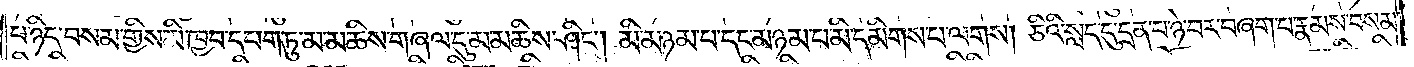པ་ཉིད་བསམ་གྱིས་མི་ཁྱབ་དཔག་ཏུ་མ་མཆིས་གཞལ་དུ་མ་མཆིས་ཤིང༌། མི་མཉམ་པ་དང་མཉམ་པ་མི་དམིགས་པ་ལགས། ཅིའི་སླད་དུ་དྲན་པ་ཉེ་བར་བཞག་པ་རྣམས་བསམ་
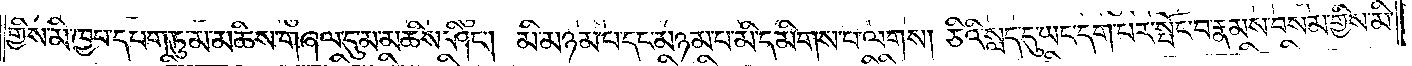གྱིས་མི་ཁྱབ་དཔག་ཏུ་མ་མཆིས་གཞལ་དུ་མ་མཆིས་ཤིང༌། མི་མཉམ་པ་དང་མཉམ་པ་མི་དམིགས་པ་ལགས། ཅིའི་སླད་དུ་ཡང་དག་པར་སྤོང་བ་རྣམས་བསམ་གྱིས་མི་
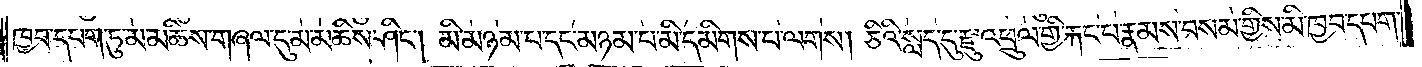ཁྱབ་དཔག་ཏུ་མ་མཆིས་གཞལ་དུ་མ་མཆིས་ཤིང༌། མི་མཉམ་པ་དང་མཉམ་པ་མི་དམིགས་པ་ལགས། ཅིའི་སླད་དུ་རྫུ་འཕྲུལ་གྱི་རྐང་པ་རྣམས་བསམ་གྱིས་མི་ཁྱབ་དཔག་
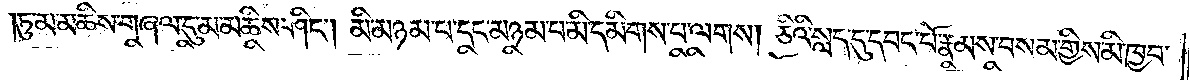ཏུ་མ་མཆིས་གཞལ་དུ་མ་མཆིས་ཤིང༌། མི་མཉམ་པ་དང་མཉམ་པ་མི་དམིགས་པ་ལགས། ཅིའི་སླད་དུ་དབང་པོ་རྣམས་བསམ་གྱིས་མི་ཁྱབ་
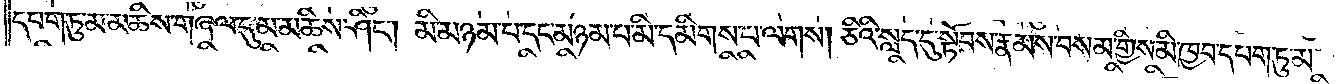དཔག་ཏུ་མ་མཆིས་གཞལ་དུ་མ་མཆིས་ཤིང༌། མི་མཉམ་པ་དང་མཉམ་པ་མི་དམིགས་པ་ལགས། ཅིའི་སླད་དུ་སྟོབས་རྣམས་བསམ་གྱིས་མི་ཁྱབ་དཔག་ཏུ་མ་
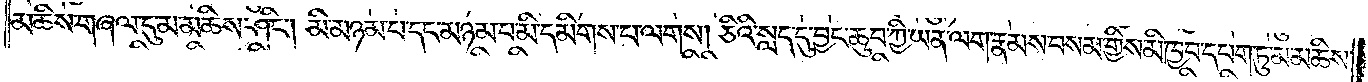མཆིས་གཞལ་དུ་མ་མཆིས་ཤིང༌། མི་མཉམ་པ་དང་མཉམ་པ་མི་དམིགས་པ་ལགས། ཅིའི་སླད་དུ་བྱང་ཆུབ་ཀྱི་ཡན་ལག་རྣམས་བསམ་གྱིས་མི་ཁྱབ་དཔག་ཏུ་མ་མཆིས་
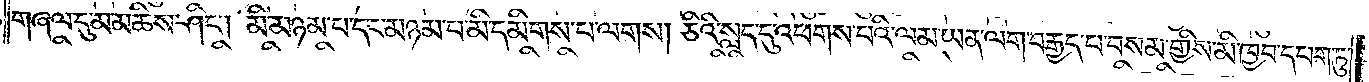གཞལ་དུ་མ་མཆིས་ཤིང༌། མི་མཉམ་པ་དང་མཉམ་པ་མི་དམིགས་པ་ལགས། ཅིའི་སླད་དུ་འཕགས་པའི་ལམ་ཡན་ལག་བརྒྱད་པ་བསམ་གྱིས་མི་ཁྱབ་དཔག་ཏུ་
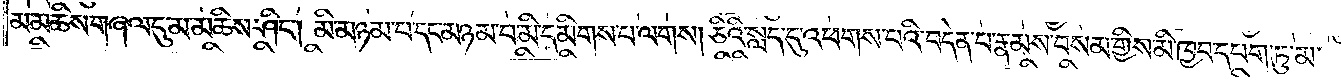མ་མཆིས་གཞལ་དུ་མ་མཆིས་ཤིང༌། མི་མཉམ་པ་དང་མཉམ་པ་མི་དམིགས་པ་ལགས། ཅིའི་སླད་དུ་འཕགས་པའི་བདེན་པ་རྣམས་བསམ་གྱིས་མི་ཁྱབ་དཔག་ཏུ་མ་
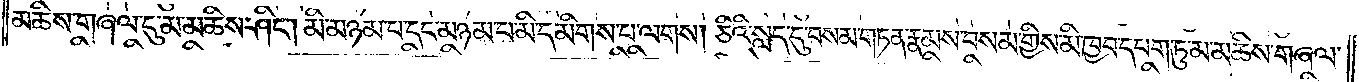མཆིས་གཞལ་དུ་མ་མཆིས་ཤིང༌། མི་མཉམ་པ་དང་མཉམ་པ་མི་དམིགས་པ་ལགས། ཅིའི་སླད་དུ་བསམ་གཏན་རྣམས་བསམ་གྱིས་མི་ཁྱབ་དཔག་ཏུ་མ་མཆིས་གཞལ་
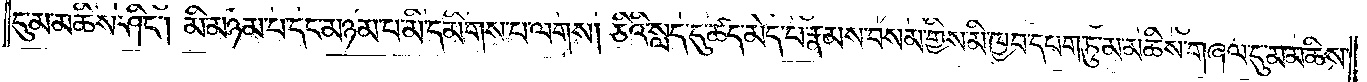དུ་མ་མཆིས་ཤིང༌། མི་མཉམ་པ་དང་མཉམ་པ་མི་དམིགས་པ་ལགས། ཅིའི་སླད་དུ་ཚད་མེད་པ་རྣམས་བསམ་གྱིས་མི་ཁྱབ་དཔག་ཏུ་མ་མཆིས་གཞལ་དུ་མ་མཆིས་
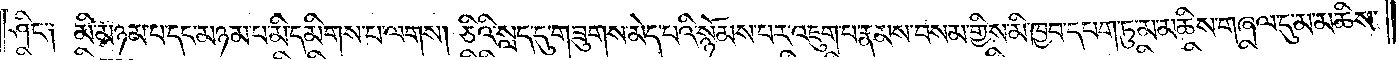ཤིང༌། མི་མཉམ་པ་དང་མཉམ་པ་མི་དམིགས་པ་ལགས། ཅིའི་སླད་དུ་གཟུགས་མེད་པའི་སྙོམས་པར་འཇུག་པ་རྣམས་བསམ་གྱིས་མི་ཁྱབ་དཔག་ཏུ་མ་མཆིས་གཞལ་དུ་མ་མཆིས་
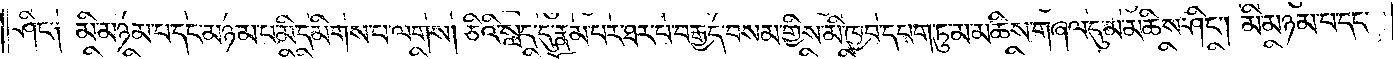ཤིང༌། མི་མཉམ་པ་དང་མཉམ་པ་མི་དམིགས་པ་ལགས། ཅིའི་སླད་དུ་རྣམ་པར་ཐར་པ་བརྒྱད་བསམ་གྱིས་མི་ཁྱབ་དཔག་ཏུ་མ་མཆིས་གཞལ་དུ་མ་མཆིས་ཤིང༌། མི་མཉམ་པ་དང་
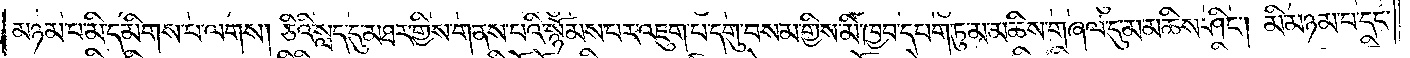མཉམ་པ་མི་དམིགས་པ་ལགས། ཅིའི་སླད་དུ་མཐར་གྱིས་གནས་པའི་སྙོམས་པར་འཇུག་པ་དགུ་བསམ་གྱིས་མི་ཁྱབ་དཔག་ཏུ་མ་མཆིས་གཞལ་དུ་མ་མཆིས་ཤིང༌། མི་མཉམ་པ་དང་
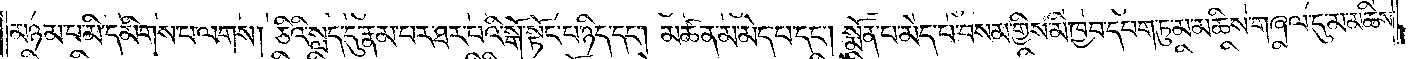མཉམ་པ་མི་དམིགས་པ་ལགས། ཅིའི་སླད་དུ་རྣམ་པར་ཐར་པའི་སྒོ་སྟོང་པ་ཉིད་དང༌། མཚན་མ་མེད་པ་དང༌། སྨོན་པ་མེད་པ་བསམ་གྱིས་མི་ཁྱབ་དཔག་ཏུ་མ་མཆིས་གཞལ་དུ་མ་མཆིས་
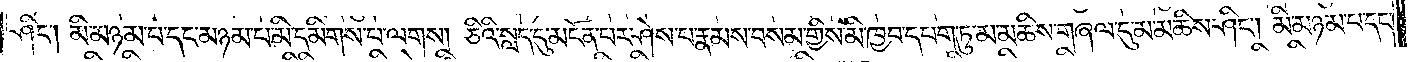ཤིང༌། མི་མཉམ་པ་དང་མཉམ་པ་མི་དམིགས་པ་ལགས། ཅིའི་སླད་དུ་མངོན་པར་ཤེས་པ་རྣམས་བསམ་གྱིས་མི་ཁྱབ་དཔག་ཏུ་མ་མཆིས་གཞལ་དུ་མ་མཆིས་ཤིང༌། མི་མཉམ་པ་དང་
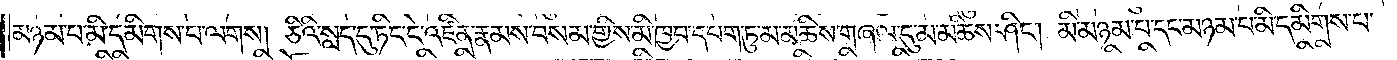མཉམ་པ་མི་དམིགས་པ་ལགས། ཅིའི་སླད་དུ་ཏིང་ངེ་འཛིན་རྣམས་བསམ་གྱིས་མི་ཁྱབ་དཔག་ཏུ་མ་མཆིས་གཞལ་དུ་མ་མཆིས་ཤིང༌། མི་མཉམ་པ་དང་མཉམ་པ་མི་དམིགས་པ་
